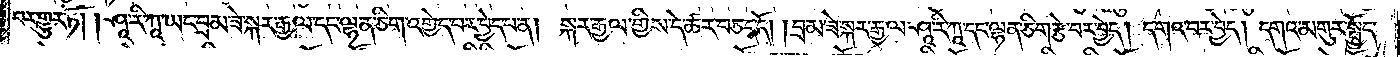བར་གྱུར་ཏོ། །ཤཱ་རི་ཀཱ་ཡང་བྲམ་ཟེ་སྐར་རྒྱལ་དང་ལྷན་ཅིག་འགྱེད་པར་བྱེད་པ་ན། སྐར་རྒྱལ་གྱིས་དེ་ཚར་བཅད་དོ། །བྲམ་ཟེ་སྐར་རྒྱལ་ཤཱ་རི་ཀཱ་དང་ལྷན་ཅིག་རྩེ་བར་བྱེད། དགའ་བར་བྱེད། དགའ་མགུར་སྤྱོད་
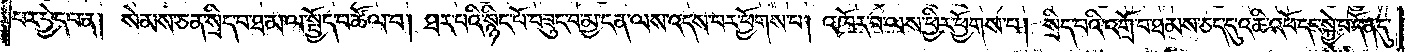པར་བྱེད་པ་ན། སེམས་ཅན་སྲིད་པ་ཐ་མ་ལ་སྤྱོད་པ་ཚོལ་པ། ཐར་པའི་སྙིང་པོ་བཟུང་པ་མྱ་ངན་ལས་འདས་པར་ཕྱོགས་པ། འཁོར་བ་ལས་ཕྱིར་ཕྱོགས་པ། སྲིད་པའི་འགྲོ་བ་ཐམས་ཅད་དུ་འཆི་འཕོ་དང་སྐྱེ་བ་དོན་དུ་
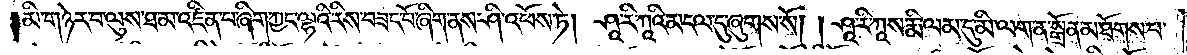།མི་གཉེར་བ་ལུས་ཐ་མ་འཛིན་པ་ཞིག་ཀྱང་ལྷའི་རིས་བཟང་པོ་ཞིག་ནས་ཤི་འཕོས་ཏེ། ཤཱ་རི་ཀཱའི་མངལ་དུ་ཞུགས་སོ། །ཤཱ་རི་ཀཱ་ས་རྨི་ལམ་དུ་མི་ལག་ན་སྒྲོན་མ་ཐོགས་པ་
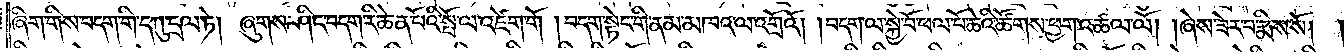ཞིག་གིས་བདག་གི་དཀུ་དྲལ་ཏེ། ཞུགས་ཤིང་བདག་རི་ཆེན་པོའི་སྤོ་ལ་འཛེག་གོ །བདག་སྟེང་གི་ནམ་མཁའ་ལ་འགྲོའོ། །བདག་ལ་སྐྱེ་བོ་ཕལ་པོ་ཆེའི་ཚོགས་ཕྱག་འཚལ་ལོ། །ཞེས་ཟེར་བ་རྨིས་སོ། །
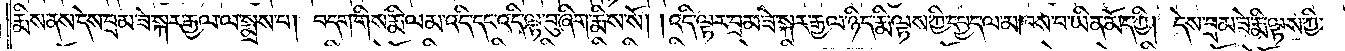རྨིས་ནས་དེས་བྲམ་ཟེ་སྐར་རྒྱལ་ལ་སྨྲས་པ། བདག་གིས་རྨི་ལམ་འདི་དང་འདི་ལྟ་བུ་ཞིག་རྨིས་སོ། །འདི་ལྟར་བྲམ་ཟེ་སྐར་རྒྱལ་ཉིད་རྨི་ལྟས་ཀྱི་དཔྱད་ལ་མཁས་པ་ཡིན་མོད་ཀྱི། དེས་བྲམ་ཟེ་རྨི་ལྟས་ཀྱི་
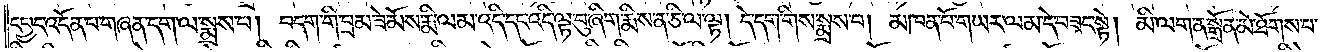དཔྱད་འདོན་བ་གཞན་དག་ལ་སྨྲས་པ། བདག་གི་བྲམ་ཟེ་མོས་རྨི་ལམ་འདི་དང་འདི་ལྟ་བུ་ཞིག་རྨིས་ན་ཅི་ལ་ལྟ། དེ་དག་གིས་སྨྲས་པ། མཁན་པོ་གཡར་ལམ་དེ་བཟང་སྟེ། མི་ལག་ན་སྒྲོན་མེ་ཐོགས་པ་
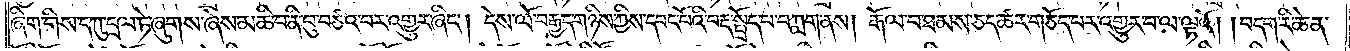ཞིག་གིས་དཀུ་དྲལ་ཏེ་ཞུགས་ཞེས་མཆི་བ་ནི་པུ་བཙའ་བར་འགྱུར་ཞིང༌། དེས་ལོ་བརྒྱད་གཉིས་ཀྱིས་དབང་པོའི་བརྡ་སྤྲོད་པ་བཀླག་ནས། རྒོལ་བ་ཐམས་ཅད་ཚར་གཅོད་པར་འགྱུར་བ་ལ་ལྟའོ། །བདག་རི་ཆེན་
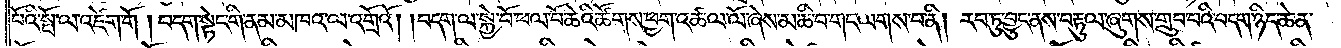པོའི་སྤོ་ལ་འཛེག་གོ །བདག་སྟེང་གི་ནམ་མཁའ་ལ་འགྲོའོ། །བདག་ལ་སྐྱེ་བོ་ཕལ་པོ་ཆེའི་ཚོགས་ཕྱག་འཚལ་ལོ་ཞེས་མཆི་བ་གང་ལགས་པ་ནི། རབ་ཏུ་བྱུང་ནས་བརྟུལ་ཞུགས་གྲུབ་པའི་བདག་ཉིད་ཆེན་
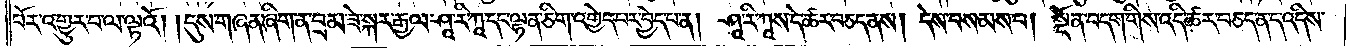པོར་འགྱུར་བ་ལ་ལྟའོ། །དུས་གཞན་ཞིག་ན་བྲམ་ཟེ་སྐར་རྒྱལ་ཤཱ་རི་ཀཱ་དང་ལྷན་ཅིག་འགྱེད་པར་བྱེད་པ་ན། ཤཱ་རི་ཀཱས་དེ་ཚར་བཅད་ནས། དེས་བསམས་པ། སྔོན་བདག་གིས་འདི་ཚར་བཅད་ནད་འདིས་
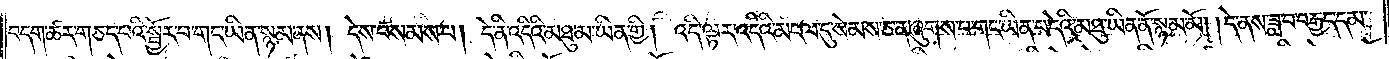བདག་ཚར་གཅད་པའི་སྦྱོར་བ་གང་ཡིན་སྙམ་ནས། དེས་བསམས་པ། དེ་ནི་འདིའི་མཐུ་མ་ཡིན་གྱི། འདི་ལྟར་འདིའི་མངལ་དུ་སེམས་ཅན་ཞུགས་པ་གང་ཡིན་པ་དེའི་མཐུ་ཡིན་ནོ་སྙམ་མོ། །དེ་ནས་ཟླ་བ་བརྒྱད་དམ་
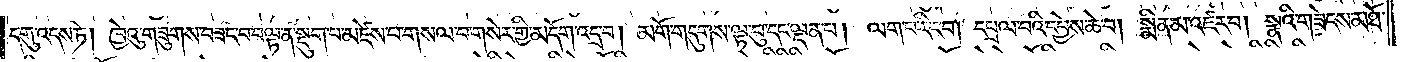དགུ་འདས་ཏེ། ཁྱེའུ་གཟུགས་བཟང་བ་བལྟ་ན་སྡུག་པ་མཛེས་པ་གསལ་བ་གསེར་གྱི་མདོག་འདྲ་བ། མགོ་གདུགས་ལྟ་བུ་དང་ལྡན་པ། ལག་པ་རིང་བ། དཔྲལ་བའི་དབྱེས་ཆེ་བ། སྨིན་མ་འཛར་བ། སྣའི་གཟེངས་མཐོ་
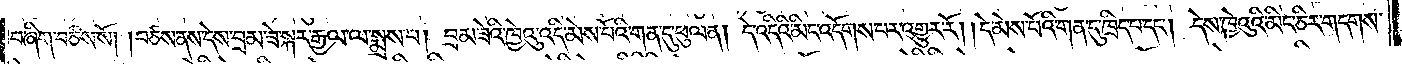བ་ཞིག་བཙས་སོ། །བཙས་ནས་དེས་བྲམ་ཟེ་སྐར་རྒྱལ་ལ་སྨྲས་པ། བྲམ་ཟེའི་ཁྱེའུ་འདི་མེས་པོའི་གན་དུ་ཕུལ་ན། དེ་འདིའི་མིང་འདོགས་པར་འགྱུར་རོ། །དེ་མེས་པོའི་གན་དུ་ཁྲིད་པ་དང༌། དེས་ཁྱེའུའི་མིང་ཅིར་གདགས་
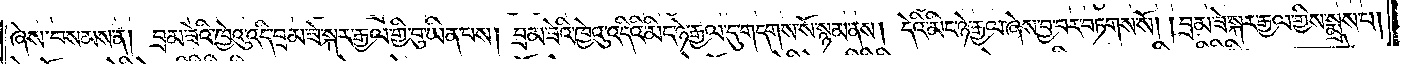ཞེས་བསམས་ན། བྲམ་ཟེའི་ཁྱེའུ་འདི་བྲམ་ཟེ་སྐར་རྒྱལ་གྱི་བུ་ཡིན་པས། བྲམ་ཟེའི་ཁྱེའུ་འདིའི་མིང་ཉེ་རྒྱལ་དུ་གདགས་སོ་སྙམ་ནས། དེའི་མིང་ཉེ་རྒྱལ་ཞེས་བྱ་བར་བཏགས་སོ། །བྲམ་ཟེ་སྐར་རྒྱལ་གྱིས་སྨྲས་པ།
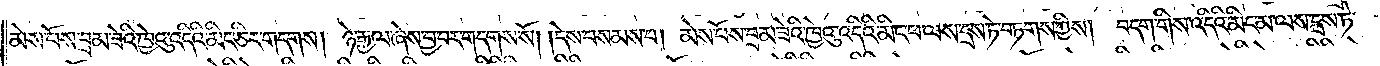མེས་པོས་བྲམ་ཟེའི་ཁྱེའུ་འདིའི་མིང་ཅིར་གདགས། ཉེ་རྒྱལ་ཞེས་བྱ་བར་གདགས་སོ། །དེས་བསམས་པ། མེས་པོས་བྲམ་ཟེའི་ཁྱེའུ་འདིའི་མིང་ཕ་ལས་དྲས་ཏེ་བཏགས་ཀྱིས། བདག་གིས་འདིའི་མིང་མ་ལས་དྲས་ཏེ་
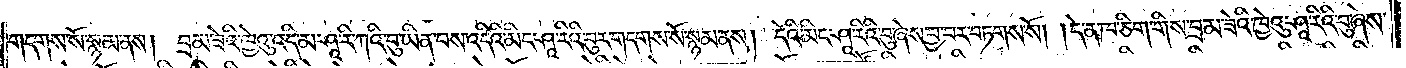གདགས་སོ་སྙམ་ནས། བྲམ་ཟེའི་ཁྱེའུ་འདི་མ་ཤཱ་རི་ཀའི་བུ་ཡིན་པས་འདིའི་མིང་ཤཱ་རིའི་བུར་གདགས་སོ་སྙམ་ནས། དེའི་མིང་ཤཱ་རིའི་བུ་ཞེས་བྱ་བར་བཏགས་སོ། །དེ་ན་ཁ་ཅིག་གིས་བྲམ་ཟེའི་ཁྱེའུ་ཤཱ་རིའི་བུ་ཞེས་
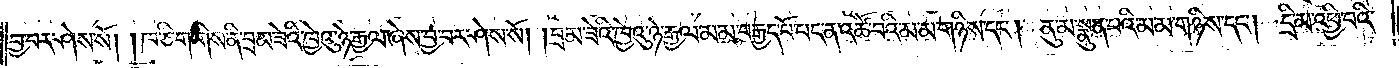བྱ་བར་ཤེས་སོ། །ཁ་ཅིག་གིས་ནི་བྲམ་ཟེའི་ཁྱེའུ་ཉེ་རྒྱལ་ཞེས་བྱ་བར་ཤེས་སོ། །བྲམ་ཟེའི་ཁྱེའུ་ཉེ་རྒྱལ་མ་མ་བརྒྱད་པོ་པང་ན་འཚོ་བའི་མ་མ་གཉིས་དང༌། ནུ་མ་སྣུན་པའི་མ་མ་གཉིས་དང༌། དྲི་མ་འཕྱི་བའི་
